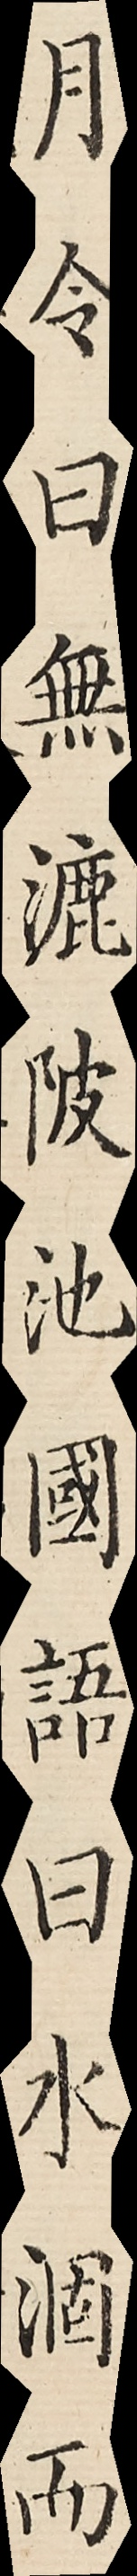月令曰無漉陂池國語曰水涸而
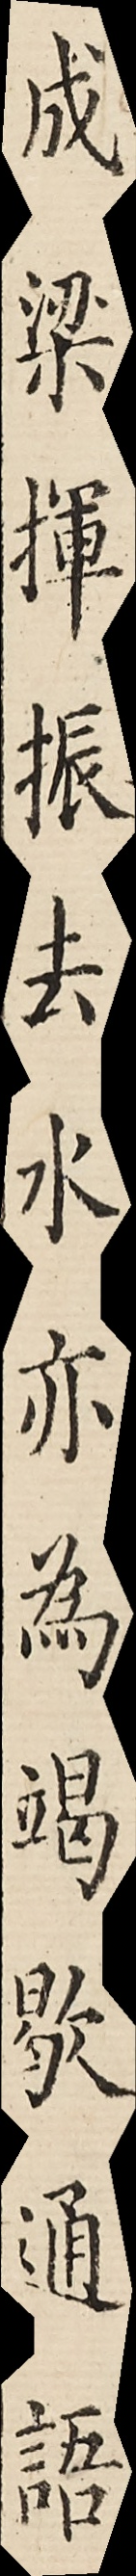成梁揮振去水亦為竭歇通語
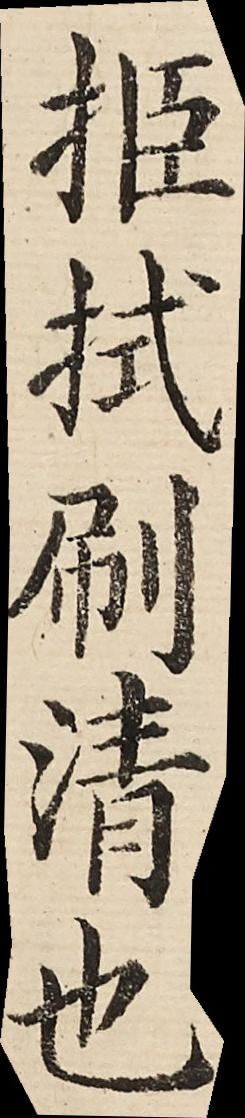挋拭刷清也
